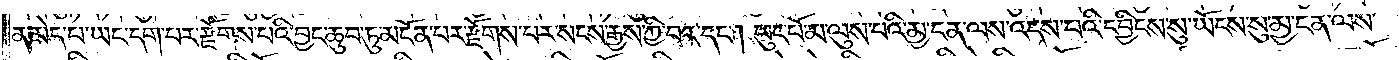ན་མེད་པ་ཡང་དག་པར་རྫོགས་པའི་བྱང་ཆུབ་ཏུ་མངོན་པར་རྫོགས་པར་སངས་རྒྱས་ཀྱི་བར་དང༌། ཕུང་པོ་མ་ལུས་པའི་མྱ་ངན་ལས་འདས་པའི་དབྱིངས་སུ་ཡོངས་སུ་མྱ་ངན་ལས་
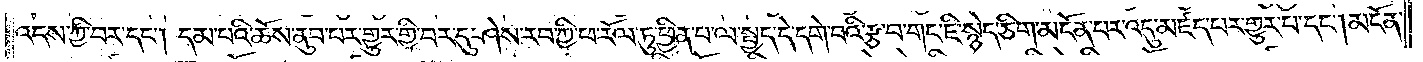འདས་ཀྱི་བར་དང༌། དམ་པའི་ཆོས་ནུབ་པར་གྱུར་གྱི་བར་དུ་ཤེས་རབ་ཀྱི་ཕ་རོལ་ཏུ་ཕྱིན་པ་ལ་སྤྱད་དེ་དགེ་བའི་རྩ་བ་གང་ཇི་སྙེད་ཅིག་མངོན་པར་འདུ་མཛད་པར་གྱུར་པ་དང༌། མངོན་
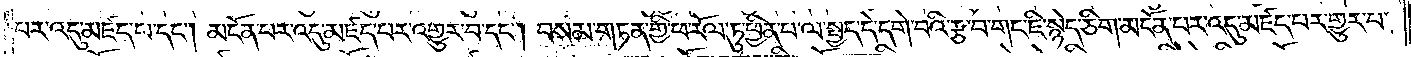པར་འདུ་མཛད་པ་དང༌། མངོན་པར་འདུ་མཛད་པར་འགྱུར་བ་དང༌། བསམ་གཏན་གྱི་ཕ་རོལ་ཏུ་ཕྱིན་པ་ལ་སྤྱད་དེ་དགེ་བའི་རྩ་བ་གང་ཇི་སྙེད་ཅིག་མངོན་པར་འདུ་མཛད་པར་གྱུར་པ་
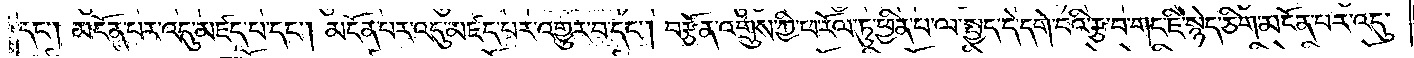དང༌། མངོན་པར་འདུ་མཛད་པ་དང༌། མངོན་པར་འདུ་མཛད་པར་འགྱུར་བ་དང༌། བརྩོན་འགྲུས་ཀྱི་ཕ་རོལ་ཏུ་ཕྱིན་པ་ལ་སྤྱད་དེ་དགེ་བའི་རྩ་བ་གང་ཇི་སྙེད་ཅིག་མངོན་པར་འདུ་
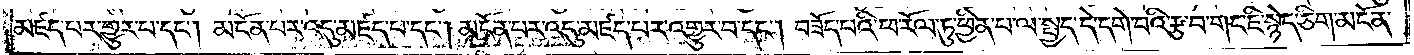མཛད་པར་གྱུར་པ་དང༌། མངོན་པར་འདུ་མཛད་པར་དང༌། མངོན་པར་འདུ་མཛད་པར་འགྱུར་བ་དང༌། བཟོད་པའི་ཕ་རོལ་ཏུ་ཕྱིན་པ་ལ་སྤྱད་དེ་དགེ་བའི་རྩ་བ་གང་ཇི་སྙེད་ཅིག་མངོན་
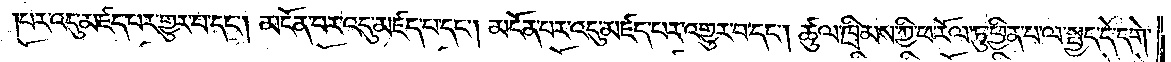པར་འདུ་མཛད་པར་གྱུར་པ་དང༌། མངོན་པར་འདུ་མཛད་པ་དང༌། མངོན་པར་འདུ་མཛད་པར་འགྱུར་བ་དང༌། ཚུལ་ཁྲིམས་ཀྱི་ཕ་རོལ་ཏུ་ཕྱིན་པ་ལ་སྤྱད་དེ་དགེ་
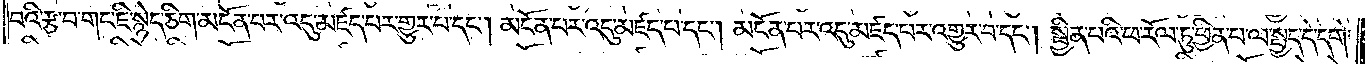བའི་རྩ་བ་གང་ཇི་སྙེད་ཅིག་མངོན་པར་འདུ་མཛད་པར་གྱུར་པ་དང༌། མངོན་པར་འདུ་མཛད་པ་དང༌། མངོན་པར་འདུ་མཛད་པར་འགྱུར་བ་དང༌། སྦྱིན་པའི་ཕ་རོལ་ཏུ་ཕྱིན་པ་ལ་སྤྱད་དེ་དགེ་
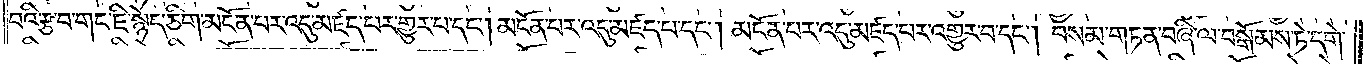བའི་རྩ་བ་གང་ཇི་སྙེད་ཅིག་མངོན་པར་འདུ་མཛད་པར་གྱུར་པ་དང༌། མངོན་པར་འདུ་མཛད་པ་དང༌། མངོན་པར་འདུ་མཛད་པར་འགྱུར་བ་དང༌། བསམ་གཏན་བཞི་ལ་བསྒོམས་ཏེ་དགེ་
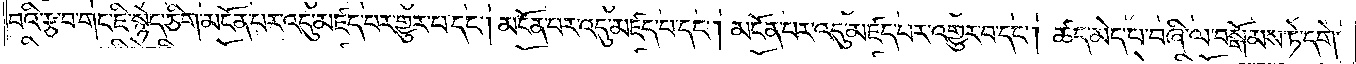བའི་རྩ་བ་གང་ཇི་སྙེད་ཅིག་མངོན་པར་འདུ་མཛད་པར་གྱུར་པ་དང༌། མངོན་པར་འདུ་མཛད་པ་དང༌། མངོན་པར་འདུ་མཛད་པར་འགྱུར་བ་དང༌། ཚད་མེད་པ་བཞི་ལ་བསྒོམས་ཏེ་དགེ་
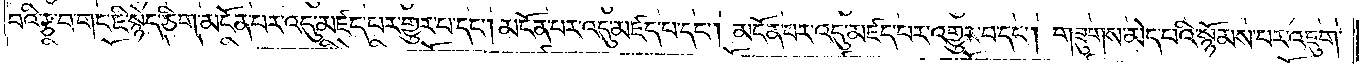བའི་རྩ་བ་གང་ཇི་སྙེད་ཅིག་མངོན་པར་འདུ་མཛད་པར་གྱུར་བ་དང༌། མངོན་པར་འདུ་མཛད་པ་དང༌། མངོན་པར་འདུ་མཛད་པར་འགྱུར་བ་དང༌། གཟུགས་མེད་པའི་སྙོམས་པར་འཇུག་
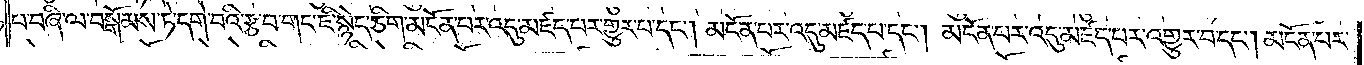པ་བཞི་ལ་བསྒོམས་ཏེ་དགེ་བའི་རྩ་བ་གང་ཇི་སྙེད་ཅིག་མངོན་པར་འདུ་མཛད་པར་གྱུར་པ་དང༌། མངོན་པར་འདུ་མཛད་པ་དང༌། མངོན་པར་འདུ་མཛད་པར་འགྱུར་བ་དང༌། མངོན་པར་
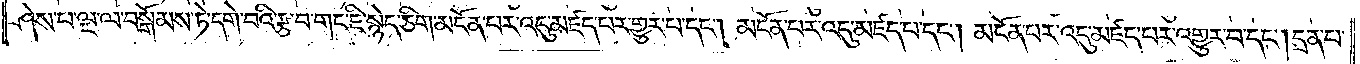ཤེས་པ་ལྔ་ལ་བསྒོམས་ཏེ་དགེ་བའི་རྩ་བ་གང་ཇི་སྙེད་ཅིག་མངོན་པར་འདུ་མཛད་པར་གྱུར་པ་དང༌། མངོན་པར་འདུ་མཛད་པ་དང༌། མངོན་པར་འདུ་མཛད་པར་འགྱུར་བ་དང༌། དྲན་པ་
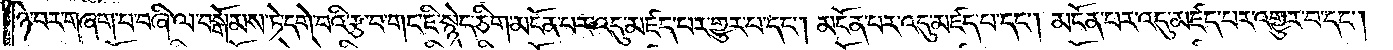ཉེ་བར་གཞག་པ་བཞི་ལ་བསྒོམས་ཏེ་དགེ་བའི་རྩ་བ་གང་ཇི་སྙེད་ཅིག་མངོན་པར་འདུ་མཛད་པར་གྱུར་བ་དང༌། མངོན་པར་འདུ་མཛད་པ་དང༌། མངོན་པར་འདུ་མཛད་པར་འགྱུར་བ་དང༌།
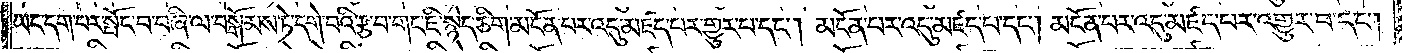ཡང་དག་པར་སྤོང་བ་བཞི་ལ་བསྒོམས་ཏེ་དགེ་བའི་རྩ་བ་གང་ཇི་སྙེད་ཅིག་མངོན་པར་འདུ་མཛད་པར་གྱུར་པ་དང༌། མངོན་པར་འདུ་མཛད་པ་དང༌། མངོན་པར་འདུ་མཛད་པར་འགྱུར་བ་དང༌།
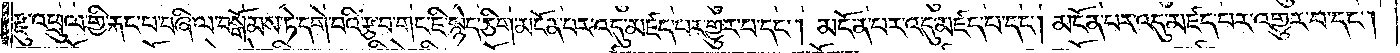རྫུ་འཕྲུལ་གྱི་རྐང་པ་བཞི་ལ་བསྒོམས་ཏེ་དགེ་བའི་རྩ་བ་གང་ཇི་སྙེད་ཅིག་མངོན་པར་འདུ་མཛད་པར་གྱུར་པ་དང༌། མངོན་པར་འདུ་མཛད་པ་དང༌། མངོན་པར་འདུ་མཛད་པར་འགྱུར་བ་དང༌།
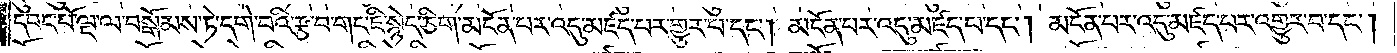དབང་པོ་ལྔ་ལ་བསྒོམས་ཏེ་དགེ་བའི་རྩ་བ་གང་ཇི་སྙེད་ཅིག་མངོན་པར་འདུ་མཛད་པར་གྱུར་པ་དང༌། མངོན་པར་འདུ་མཛད་པ་དང༌། མངོན་པར་འདུ་མཛད་པར་འགྱུར་བ་དང༌།
